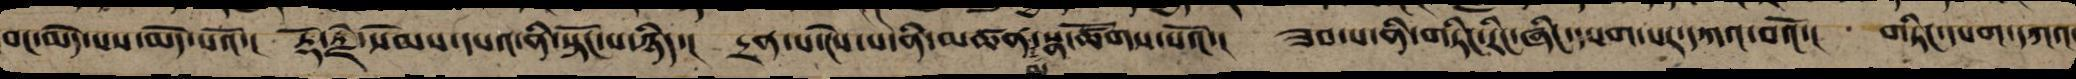བང་མེད་པས་མེད་པའོ་། རྡོ་རྗེ་སེམས་དཔའ་ནི་སྟོང་པ་ཉིད་། དྲན་པ་ངེས་པ་ནི་མཚན་སྣ་ཚོགས་པའོ་། ཟབ་པ་ནི་གཏིང་རིང་ཞིང་དཔག་པར་དཀའ་བའོ་། གཏིང་དཔག་དཀའ་
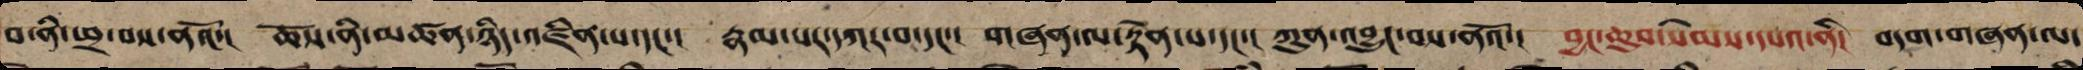བ་ནི་ཕྲ་བས་ནའོ་། ཆོས་ནི་མཚན་ཉིད་འཛིན་པ་དང་། རྣམ་པར་དཀར་བ་དང་། གཞན་ལ་བརྟེན་པ་དང་། ཀུན་འབྱུང་བས་ནའོ་། བྱང་ཆུབ་སེམས་དཔའ་ནི་། བདག་གཞན་ལ་
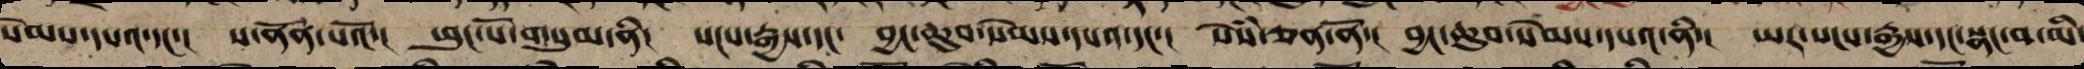སེམས་དཔའ་དང་། ས་ནོན་པའོ་། ཕུང་པོ་གསུམ་ནི། སངས་རྒྱས་དང་ བྱང་ཆུབ་སེམས་དཔའ་དང་། སེཾས་ཅན་ནོ་། བྱང་ཆུབ་སེམས་དཔའ་ནི་། ཡར་སངས་རྒྱས་དང་སྣང་བ་མི་
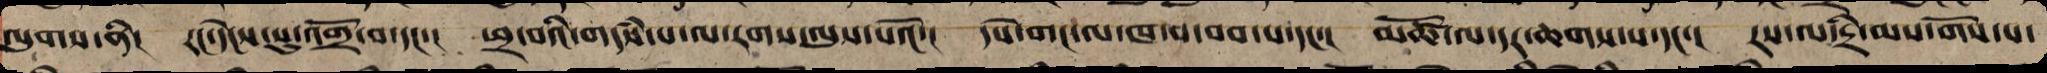ལུགས་ནི། རང་དེངས་སུ་འགྲོ་བ་དང་། ཕྲ་བའི་གདཾས་པ་ལ་རགས་ལུས་པའོ་། དཔེ་གང་ལ་ཁ་བ་བབ་པ་དང་། མཚོ་ལ་དར་ཆགས་པ་དང་། རས་ལ་དྲི་མས་གོས་པ་
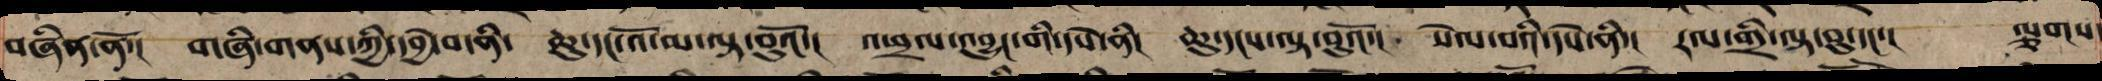བཞིན་ནོ་། གཞི་གནས་ཀྱི་དབྱེ་བ་ནི་ ཆུ་དང་འོ་མ་ལྟ་བུའོ་། འཕྲལ་འབྱུང་གི་དཔེ་ནི། ཆུ་དངས་ལྟ་བུའོ་། སེལ་བའི་དཔེ་ནི་། རལ་གྲི་ལྟ་བུ་དང་། ལྕགས་
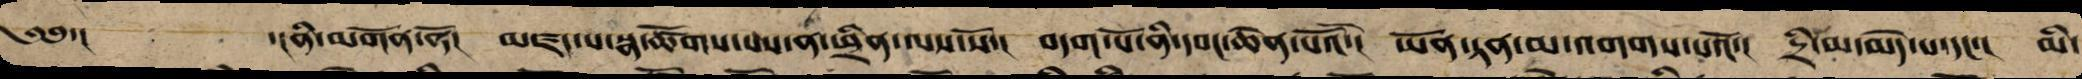༄༅་། ་།ནི་མགོན་ནོ། མཛད་པ་སྣ་ཚོགས་པས་ན་ཕྲིན་ལས་སོ་། བདག་པོ་ནི་དབང་ཆེན་པོའོ་། ཡོན་ཏན་མ་འགགས་པའོ་། དྲི་མ་མེད་པ་དང་། མི་
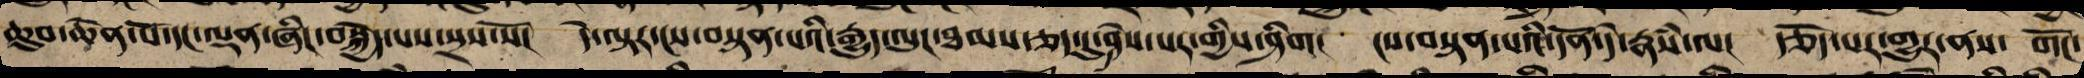ཆུབ་ཆེན་པོ་དང་ལྡན་ཞིང་བསྐྱེད་པས་སྲས་སོ། དེ་ལྟར་ངས་བསྟན་པའི་རྒྱུད་ལུང་ཐམས་ཅད་དུ་ཤེས་པར་གྱིས་ཤིག། ངས་བསྟན་པའི་དོན་དེ་རྣཾས་ལ། རྩོད་པར་གྱུར་ནས་ གོང་
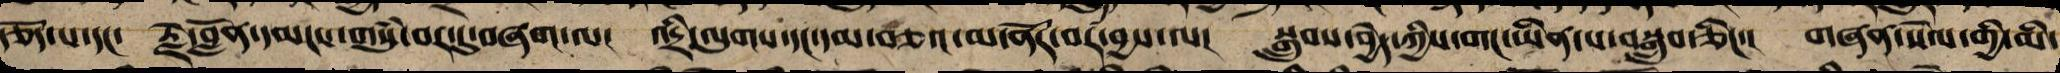རྩོད་པ་དང་ རྗེ་བློན་དམངས་གསུཾ་བར་དུ་བཞག་ལ། འདྲི་ལུགས་དང་དམ་བཅའ་མ་ནོར་བར་བྱས་ལ། སྒྲུབས་བྱེད་ཀྱིས་གང་ཡིན་པ་བསྒྲུབ་ཅིང་། གཞན་སེལ་གྱི་མི་
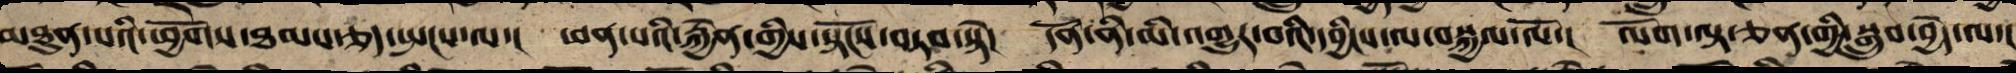མཐུན་པའི་ཕྱོགས་ཐམས་ཅད་སྤངས་ལ་། ཕན་པའི་རྐྱེན་གྱིས་སྟོངས་བཏབ་སྟེ། དོན་ནི་མི་འགྱུར་བའི་དབྱིངས་ལ་བསྐྱལ་ལོ་། ལོག་ལྟ་ཅན་གྱི་སྒྲུབ་བྱེད་ལ་།
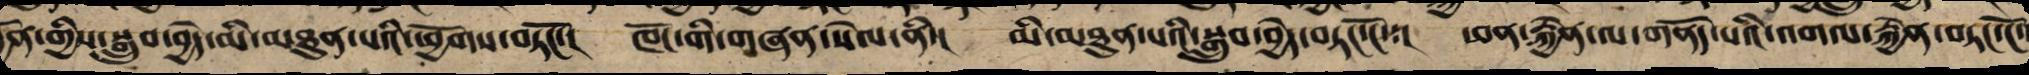ན་གྱིས་སྒྲུབ་བྱེད་མི་མཐུན་པའི་ཕྱོགས་བཏོང་། ཁོང་གི་གཞན་སེལ་ནི་། མི་མཐུན་པའི་སྒྲུབ་བྱེད་བཏང་ངོ་་། ཕན་རྐྱེན་ལ་གནོད་པའི་འགལ་རྐྱེན་བཏང་ངོ་
